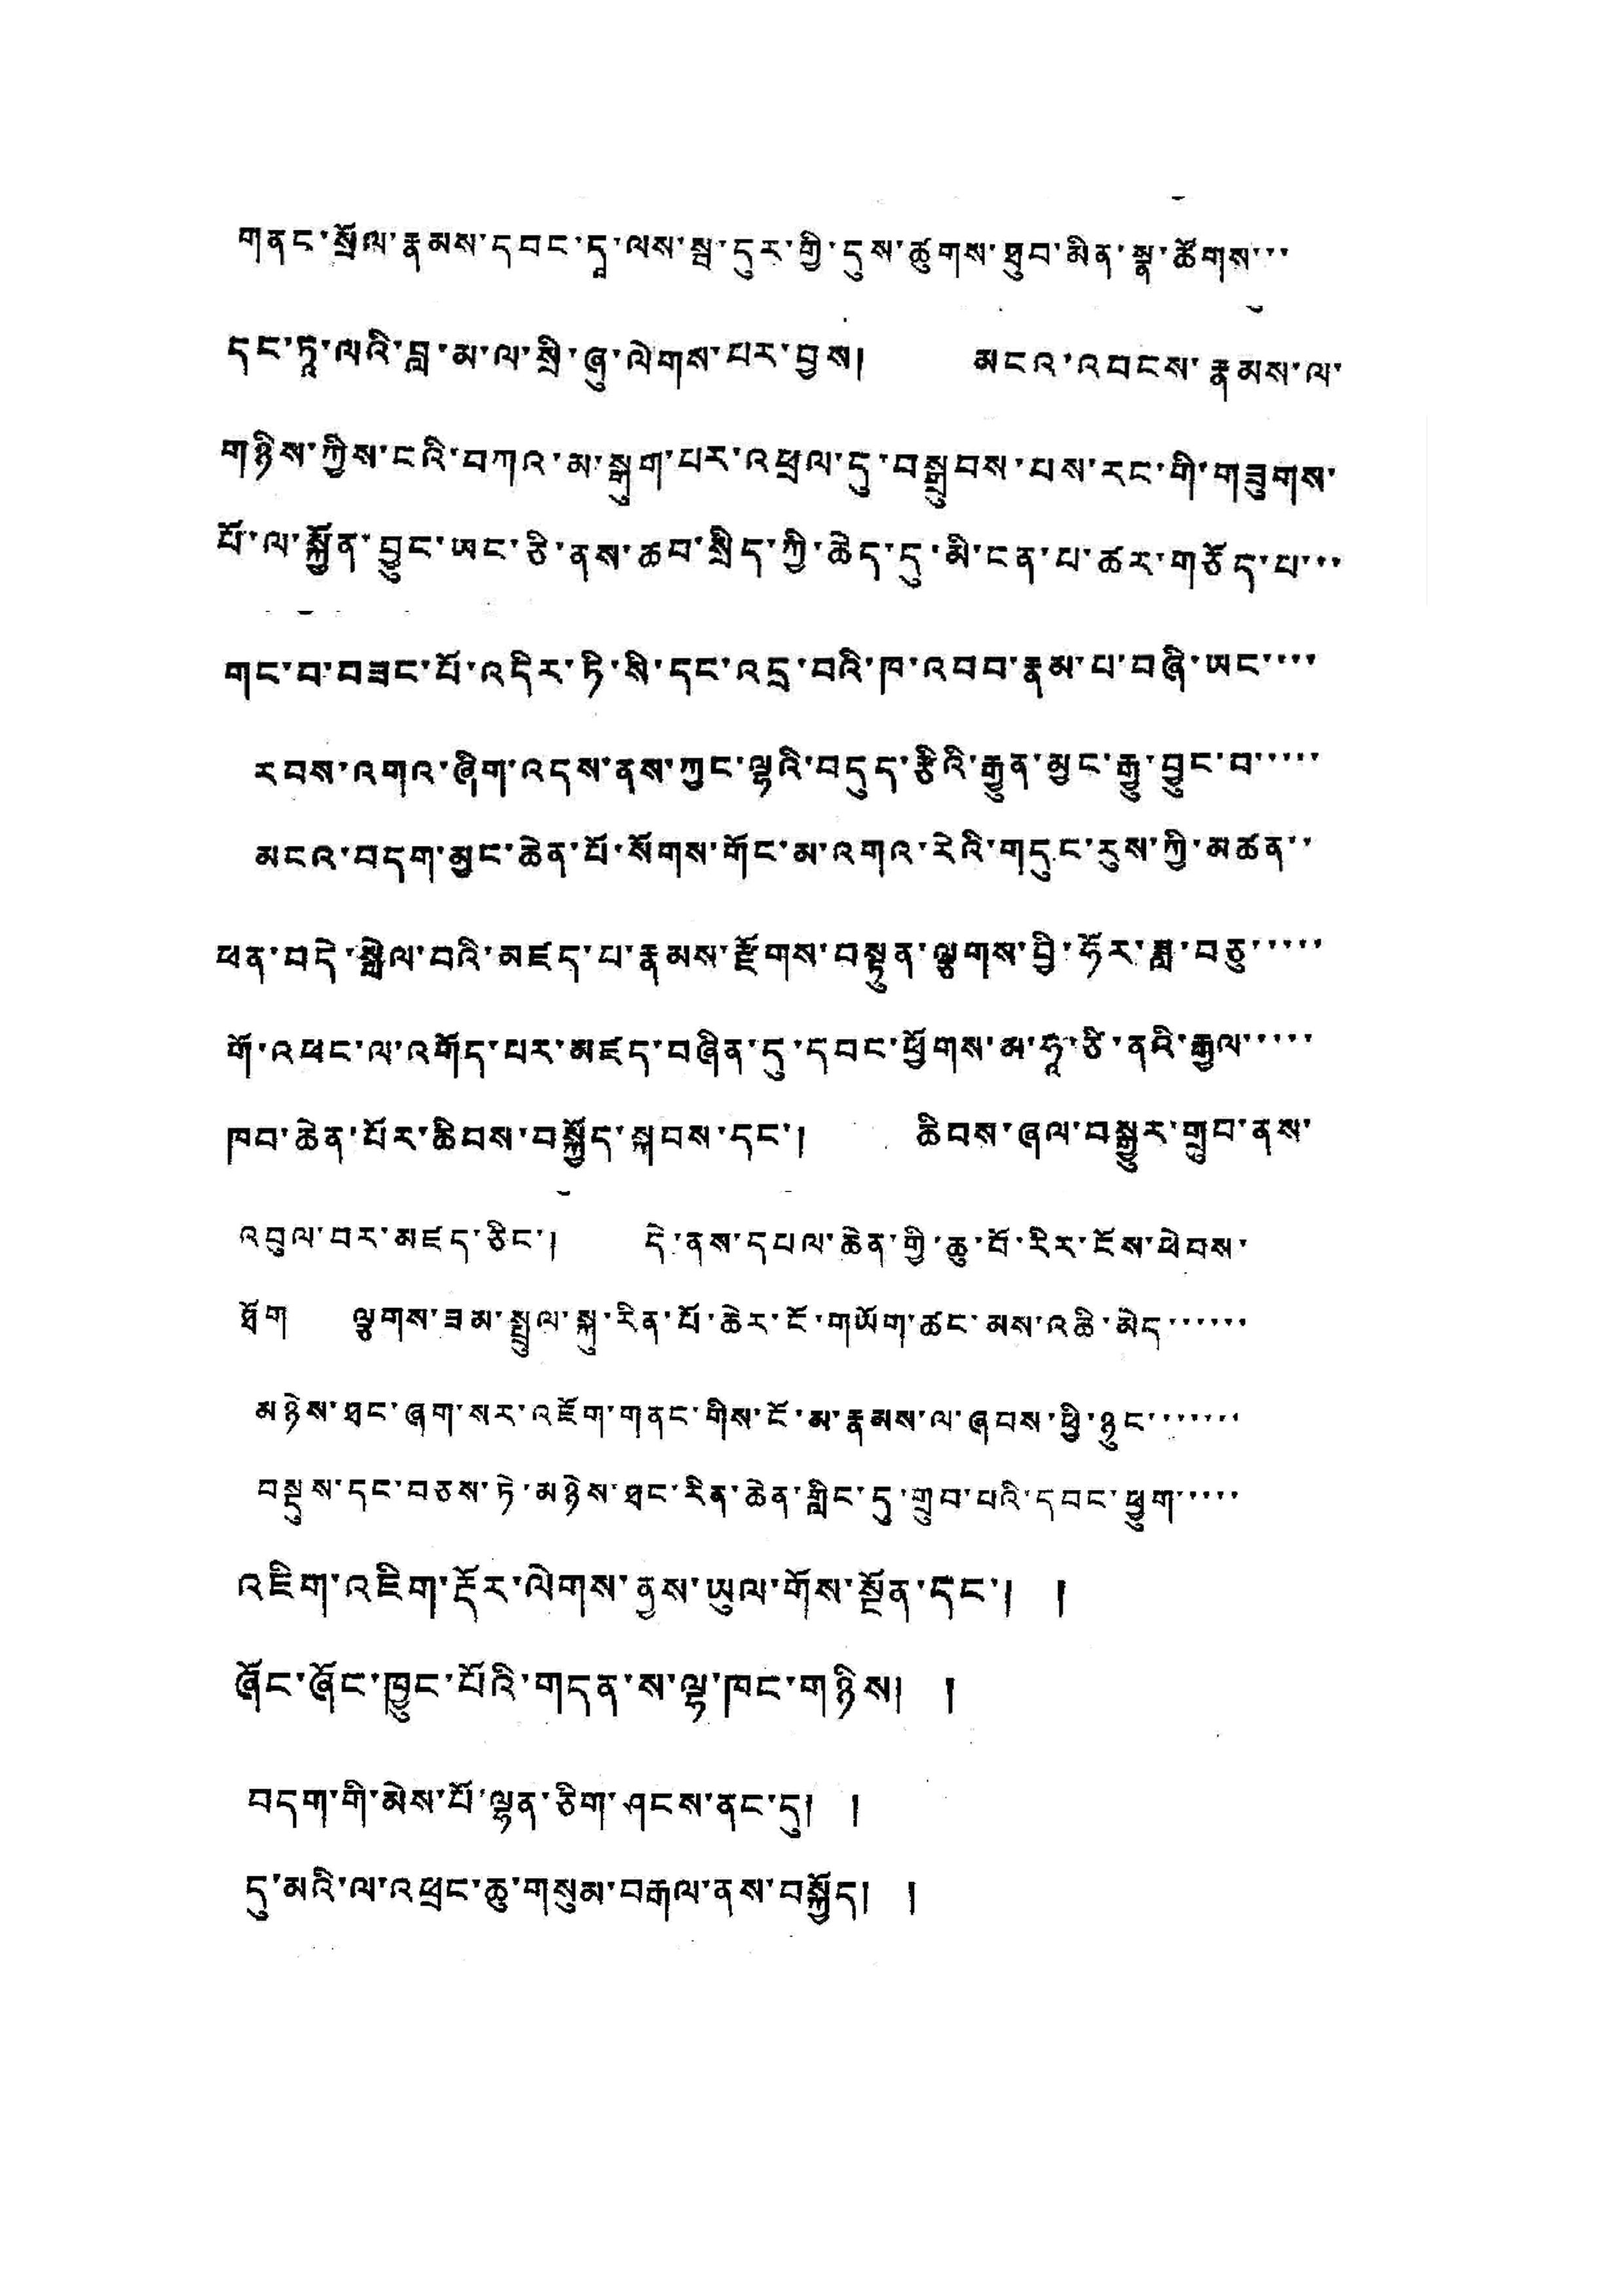གནང་སྲོལ་རྣམས་དབང་དཱ་ལས་སྦ་དུར་གྱི་དུས་ཚུགས་ཐུབ་མིན་སྣ་ཚོགས་་་
དང་ཏཱ་ལའི་བླ་མ་ལ་སྲི་ཞུ་ལེགས་པར་བྱས། མངའ་འབངས་རྣམས་ལ་
གཉིས་ཀྱིས་ངའི་བཀའ་མ་སྒུག་པར་འཕྲལ་དུ་བསྒྲུབས་པས་རང་གི་གཟུགས་
པོ་ལ་སྐྱོན་བྱུང་ཡང་ཅི་ནས་ཆབ་སྲིད་ཀྱི་ཆེད་དུ་མི་ངན་པ་ཚར་གཅོད་པ་་་
གང་བ་བཟང་པོ་འདིར་ཏི་སི་དང་འདྲ་བའི་ཁ་འབབ་རྣམ་པ་བཞི་ཡང་་་་
རབས་འགའ་ཞིག་འདས་ནས་ཀྱང་ལྷའི་བདུད་རྩིའི་རྒྱུན་མྱང་རྒྱུ་བྱུང་བ་་་་་
མངའ་བདག་མྱང་ཆེན་པོ་སོགས་གོང་མ་འགའ་རེའི་གདུང་རུས་ཀྱི་མཚན་་
ཕན་བདེ་སྤེལ་བའི་མཛད་པ་རྣམས་རྫོགས་བསྟུན་ལྕགས་བྱི་ཧོར་ཟླ་བཅུ་་་་་
གོ་འཕང་ལ་འགོད་པར་མཛད་བཞིན་དུ་དབང་ཕྱོགས་མ་ཧཱ་ཙི་ནའི་རྒྱལ་་་་་
ཁབ་ཆེན་པོར་ཆིབས་བསྐྱོད་སྐབས་དང་། ཆིབས་ཞལ་བསྒྱུར་གྲུབ་ནས་
འབུལ་བར་མཛད་ཅིང་། དེ་ནས་དཔལ་ཆེན་གྱི་ཆུ་བོ་རིང་ངོས་ཕེབས་
ཐོག ལྕགས་ཟམ་སྤྲུལ་སྐུ་རིན་པོ་ཆེར་ངོ་གཡོག་ཚང་མས་འཆི་མེད་་་་་་
མཉེས་ཐང་ཞག་སར་འཇོག་གནང་གིས་ངོ་མ་རྣམས་ལ་ཞབས་ཕྱི་ཉུང་་་་་་་
བསྡུས་དང་བཅས་ཏེ་མཉེས་ཐང་རིན་ཆེན་གླིང་དུ་གྲུབ་པའི་དབང་ཕྱུག་་་་་
འཇིག་འཇིག་རྡོར་ལེགས་ནྱས་ཡུལ་གོས་སྔོན་དང་། །
ཞོང་ཞོང་ཁྱུང་པོའི་གདན་ས་ལྷ་ཁང་གཉིས། །
བདག་གི་མེས་པོ་ལྷན་ཅིག་ཤངས་ནང་དུ། །
དུ་མའི་ལ་འཕྲང་ཆུ་གསུམ་བརྒལ་ནས་བསྐྱོད། །
